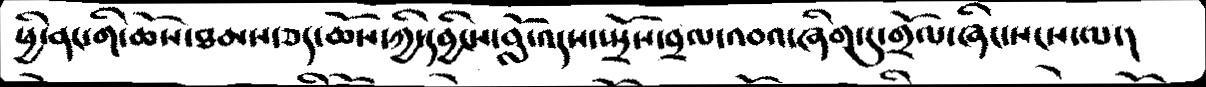ཕྱི་ནང་གི་ཆོས་ཐམས་ཅད་ཆོས་ཀྱི་དབྱིངས་བློ་འདས་སྤྲོས་བྲལ་འབའ་ཞིག་དུ་གྲོལ་ཞིང་སངས་ལ་།
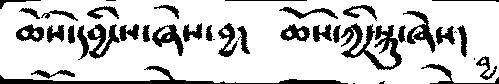ཆོས་དབྱིངས་ཞེས་བྱ།   ཆོས་ཀྱི་སྐུ་ཞེས།
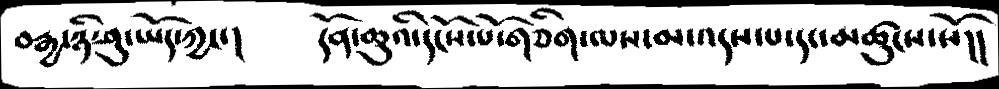བརྒྱ་ཉི་ཤུ་ཡོད་ཀྱང་།   དོན་ཆུའི་དངོས་པོ་གཅིག་ལས་མ་འདས་པ་དང་མཚུངས་སོ།།
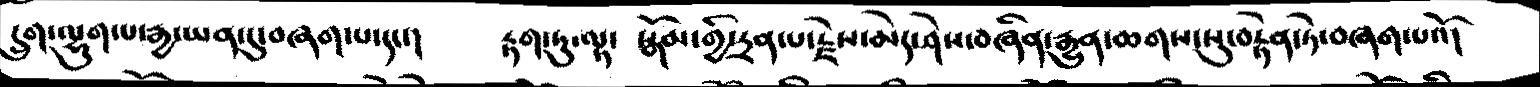དྲུག་ལྷུག་པ་རྒྱ་ཡན་དུ་བཞག་པ་དང་།  རྟག་ཏུ་ལྟ་ སྒོམ་གྱི་དྲན་པ་རྗེས་མེད་ཤེས་བཞིན་རྒྱུན་ཆགས་སུ་བརྟེན་ཏེ་བཞག་པའོ།
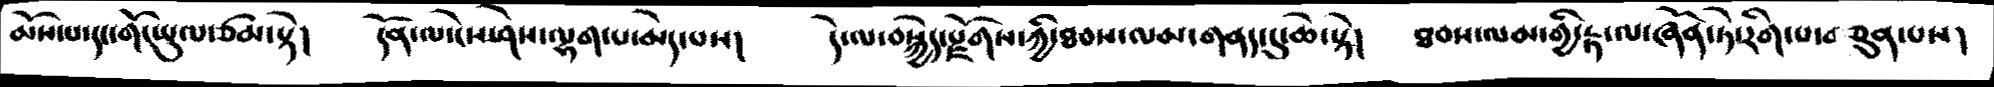མོས་པ་དང་གོ་ཡུལ་ཙམ་སྟེ།   དོན་ལ་ངེས་ཤེས་ལྷག་པ་མེད་པས།  དེ་ལ་བསྐྱེད་རྫོགས་གཉིས་ཀྱི་ཐབས་ལམ་གནད་དུ་ཆེ་སྟེ།   ཐབས་ལམ་གྱི་རྟ་ལ་ཞོན་ཏེ་རིག་པ་བཅུན་པས།
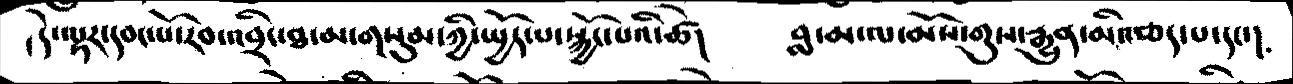།དེ་ལྟར་དབང་པོ་རབ་འབྲིང་ཐ་མ་གསུམ་ཀྱི་སྤྱོད་པ་སྐྱོང་པའི་ཚེ།   བླ་མ་ལ་མོས་གུས་རྒྱུན་མི་ཆད་པ་དང་།
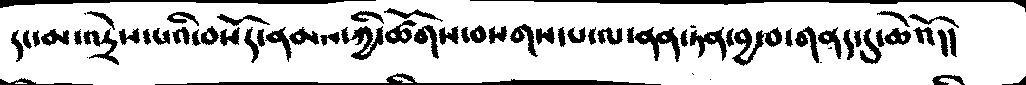དང་མ་འདྲེས་པའི་བསོད་ནམས་ཀྱི་ཚོགས་བསགས་པ་ལ་ནན་ཏན་བྱ་བ་གནད་དུ་ཆེའོ།།
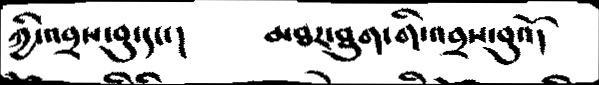ཀྱི་འབྲས་བུ་དང་།   མཐར་ཐུག་གི་འབྲས་བུའོ།
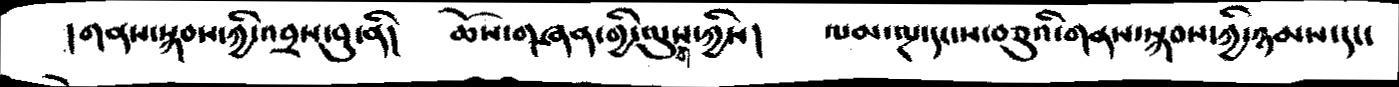།གནས་སྐབས་ཀྱི་འབྲས་བུ་ནི།   ཆོས་གཞན་གྱི་ལུགས་ཀྱིས།   ལམ་ལྔ་དང་ས་བཅུའི་གནས་སྐབས་ཀྱི་ཉམས་དང་
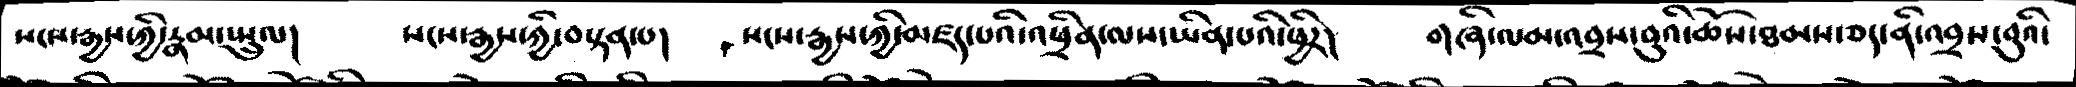སངས་རྒྱས་ཀྱི་རྣམ་སྤྲུལ།     སངས་རྒྱས་ཀྱི་བསྟན་པ།   སངས་རྒྱས་ཀྱི་མཛད་པའི་འཕྲིན་ལས་ཡིན་པའི་ཕྱིར།    གཞི་ལམ་འབྲས་བུའི་ཆོས་ཐམས་ཅད་ནི་འབྲས་བུའི་
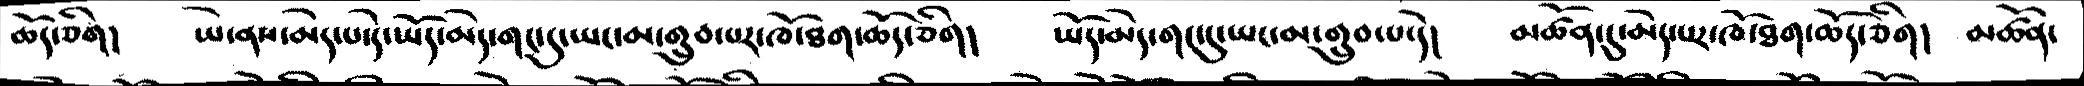ཆོད་ཅིག།    ཡེ་ནས་མེད་པ་དེ་ཡོད་མེད་གང་དུ་ཡང་མ་གྲུབ་པར་ཁོ་ཐག་ཆོད་ཅིག།   ཡོད་མེད་གང་དུ་ཡང་མ་གྲུབ་པ་དེ།   མཚོན་དུ་མེད་པར་ཁོ་ཐག་ཆོད་ཅིག།  མཚོན་
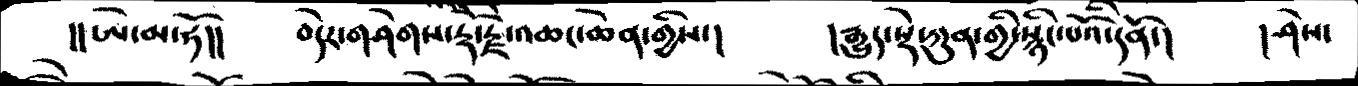།།ཨེ་མ་ཧོ།།    བདེར་གཤེགས་རྡོ་རྗེ་འཆང་ཆེན་གྱིས་།   །རྒྱུད་སྡེ་ཀུན་གྱི་སྙིང་པོའི་དོན་།  །ཤེས་
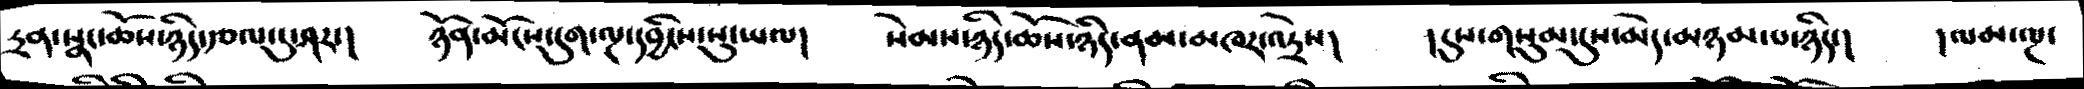དྲན་སྣང་ཆོས་ཉིད་རྩལ་དུ་ཤར་།   ཉོན་མོངས་དུག་ལྔ་དབྱིངས་སུ་ཡལ།   སེམས་ཉིད་ཆོས་ཉིད་ནམ་མཁར་འདྲེས།  །དུས་གསུམ་དུས་མེད་མཉམ་པ་ཉིད་།  །ལམ་ལྔ་
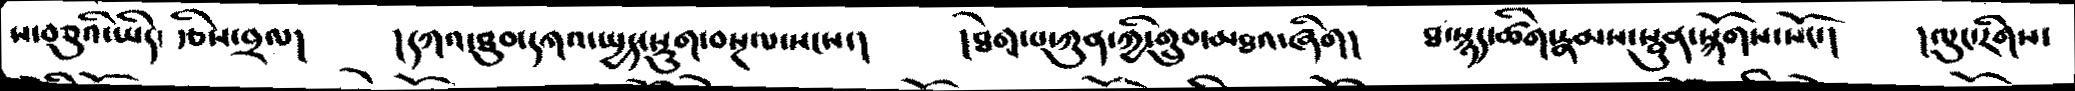ས་བཅུའི་ཡིད་རྩིས་བྲལ།   །དཀའ་ཐུབ་དཀའ་སྤྱད་སྡུག་བསྔལ་སངས་།   །ཐེགས་པ་ཀུན་ཀྱི་གྲུབ་མཐའ་ཞིག།  ཐ་སྙད་ཚིག་རྣམས་སྦུན་སྐོགས་སོང་།   །ལུང་རིགས་
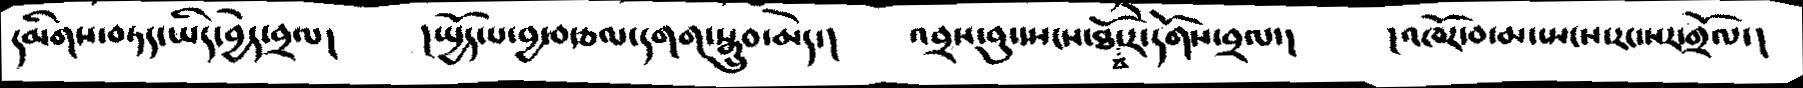དམིགས་བཏད་ཡིད་བྱེད་བྲལ།   །སྤྱོད་པ་བྱ་བརྩལ་དགག་སྒྲུབ་མེད་།   འབྲས་བུ་སྤངས་ཐོབ་རེ་དོགས་བྲལ་།   །འཁོར་བ་མ་སྤངས་རང་སར་གྲོལ་།
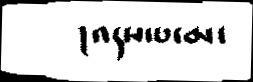།འདས་པ་མ་
